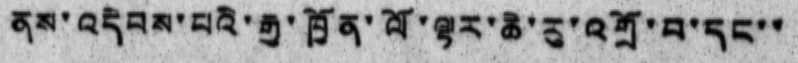ནས་འདེབས་པའི་རྒྱ་ཁྱོན་ལོ་ལྟར་ཆེ་རུ་འགྲོ་བ་དང་་
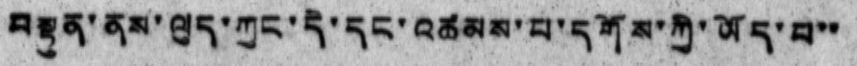བསྟུན་ནས་ལུད་ཀྱང་དེ་དང་འཚམས་པ་དགོས་ཀྱི་ཡོད་པ་་
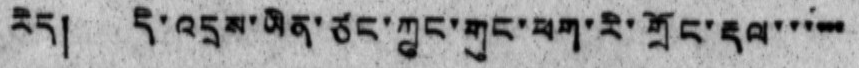རེད། དེ་འདྲས་ཡིན་ཙང་ཀྲུང་གུང་ཕག་རི་གྲོང་རྡལ་་་་་་
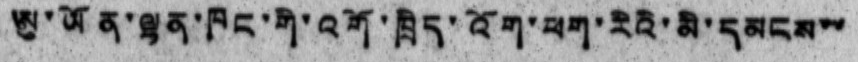ཨུ་ཡོན་ལྷན་ཁང་གི་འགོ་ཁྲིད་འོག་ཕག་རིའི་མི་དམངས་་
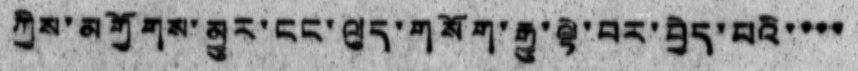ཀྱིས་མགྱོགས་མྱུར་ངང་ལུད་གསོག་རྒྱུ་ལྟེ་བར་བྱེད་པའི་་་་
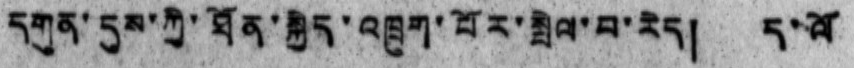དགུན་དུས་ཀྱི་ཐོན་སྐྱེད་འཁྲུག་པོར་སྤེལ་བ་རེད། ད་ལོ
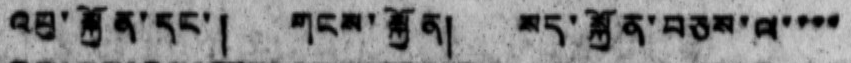འབུ་སྐྱོན་དང་། གངས་སྐྱོན། སད་སྐྱོན་བཅས་ལ་་་་
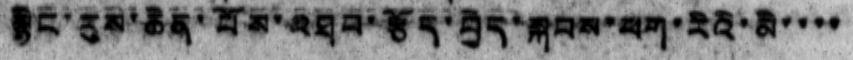སྙིང་རུས་ཆེན་པོས་འཐབ་རྩོད་བྱེད་སྐབས་ཕག་རིའི་མི་་་་་
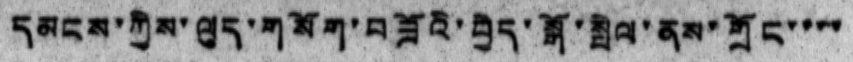དམངས་ཀྱིས་ལུད་གསོག་བཟོའི་བྱེད་སྒོ་སྤེལ་ནས་གྲོང་་་་
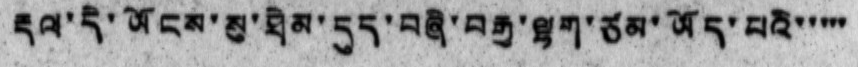རྡལ་དེ་ཡོངས་སུ་ཐེམ་དུད་བཞི་བརྒྱ་ལྷག་ཙམ་ཡོད་པའི་་་་་
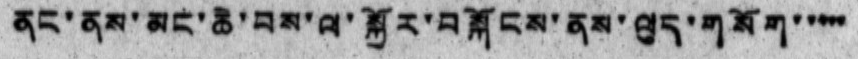ནང་ནས་མང་ཆེ་བས་ལ་སྐྱོར་བསྐོངས་ནས་ལུད་གསོག་་་་་
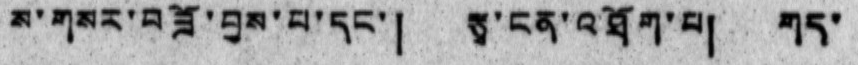ས་གསར་བཟོ་བྱས་པ་དང་། རྩྭ་ངན་འཐོག་པ། གད་
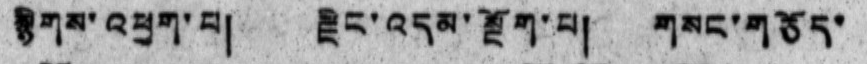སྙིགས་འཕྱག་པ། རྫིང་འདམ་སྔོག་པ། གསང་གཅོད་
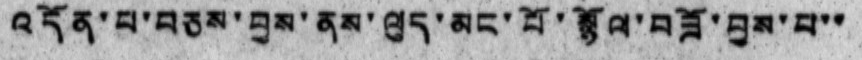འདོན་པ་བཅས་བྱས་ནས་ལུད་མང་པོ་སྙོལ་བཟོ་བྱས་པ་་
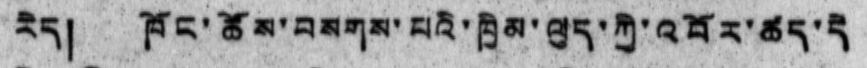རེད། ཁོང་ཚོས་བསགས་པའི་ཁྱིམ་ལུད་ཀྱི་འབོར་ཚད་དེ
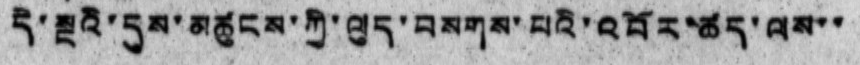དེ་སྔའི་དུས་མཚུངས་ཀྱི་ལུད་བསགས་པའི་འབོར་ཚད་ལས་་
